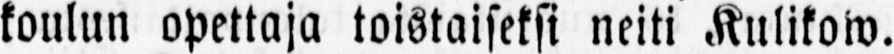koulun opettaja toistaiseksi neiti Kulikow.
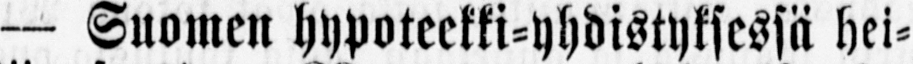— Suomen hypoteekki-yhdistyksessä hei-
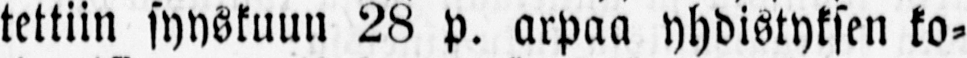tettiin syyskuun 28 p. arpaa yhdistyksen ko-
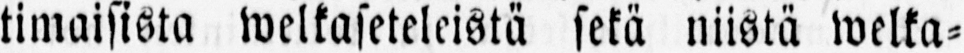timaisista welkaseteleistä sekä niistä welka-
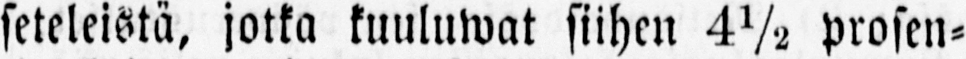seteleistä, jotka kuuluwat siihen 4½ prosen-
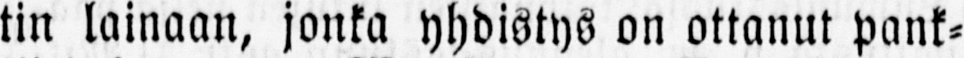tin lainaan, jonka yhdistys on ottanut pank-
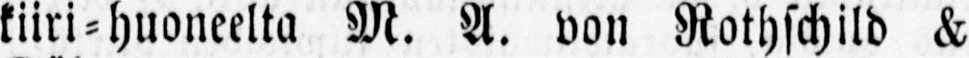kiiri-huoneelta M. A. von Rothschild &
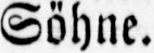Söhne.
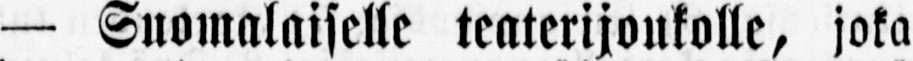— Suomalaiselle teaterijoukolle, joka
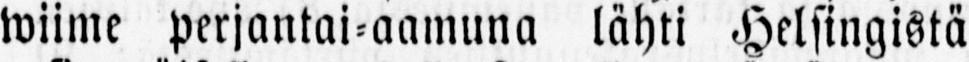wiime perjantai-aamuna lähti Helsingistä
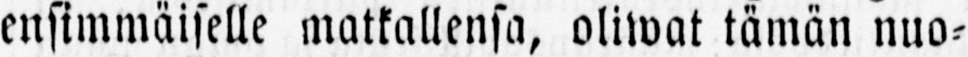ensimmäiselle matkallensa, oliwat tämän nuo-
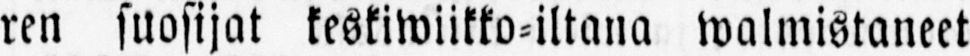ren suosijat keskiwiikko-iltana walmistaneet
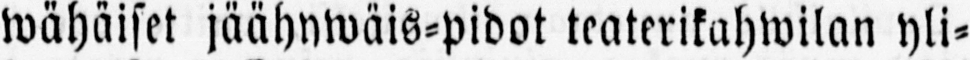wähäiset jäähywäis-pidot teaterikahwilan yli-
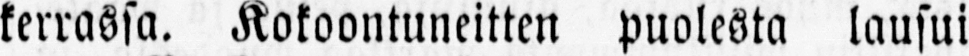kerrassa. Kokoontuneitten puolesta lausui
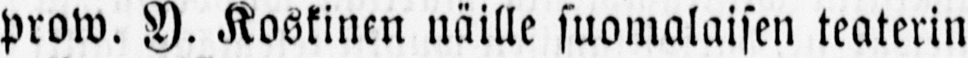prow. Y. Koskinen näille suomalaisen teaterin
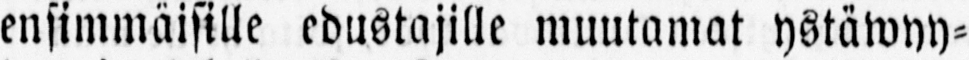ensimmäisille edustajille muutamat ystäwyy-
